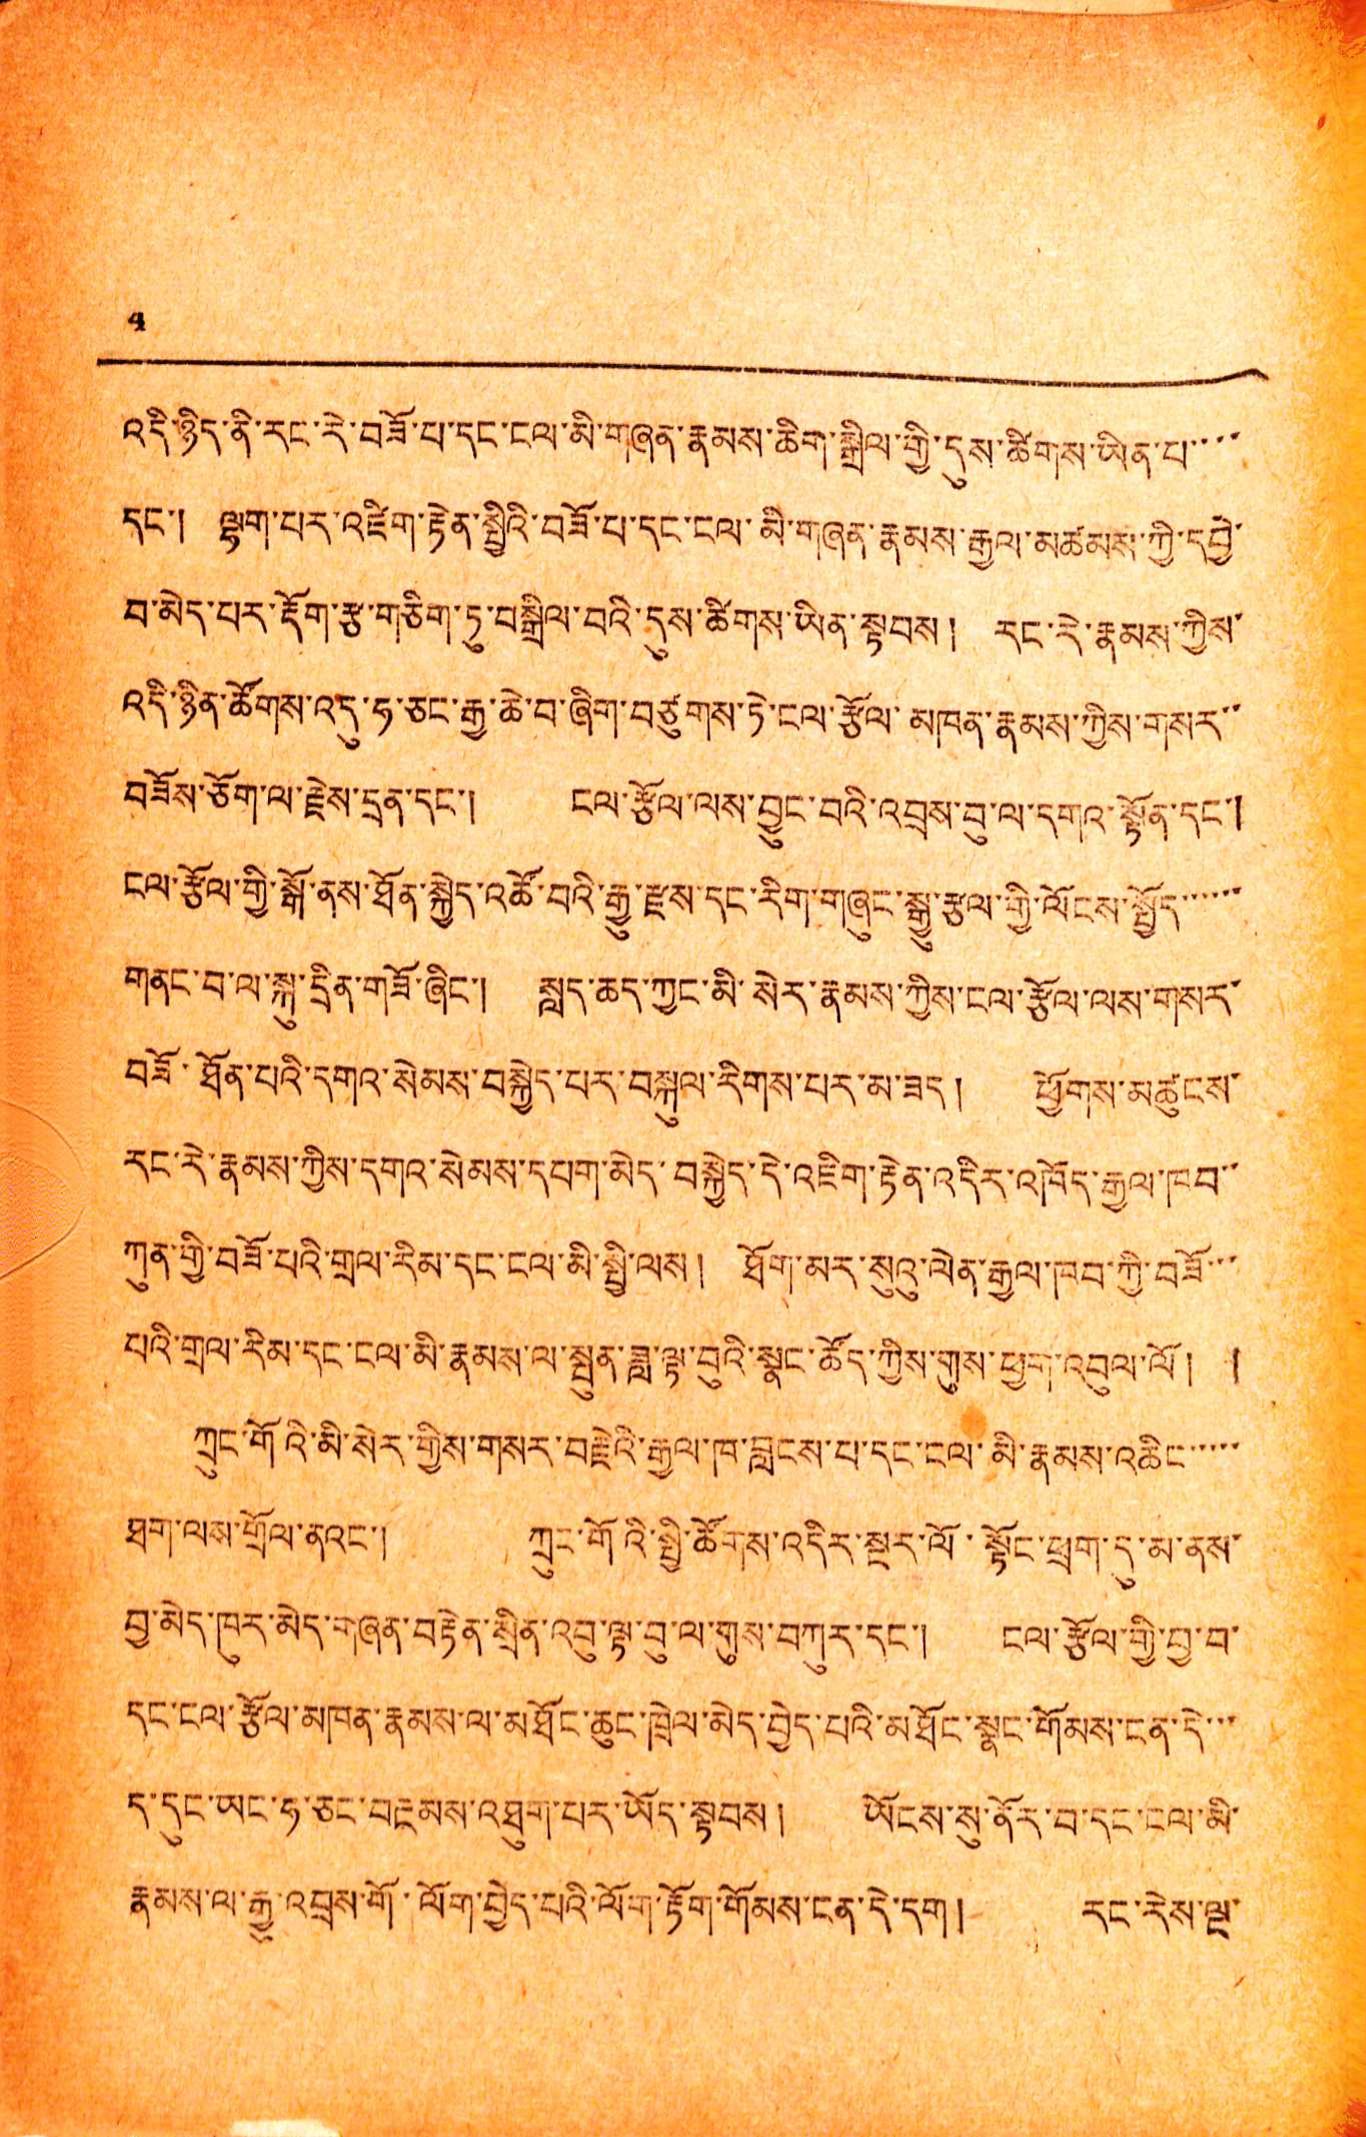4
འདི་ཉིད་ནི་རང་རེ་བཟོ་པ་དང་ངལ་མི་གཞན་རྣམས་ཆིག་སྒྲིལ་གྱི་དུས་ཚིགས་ཡིན་པ་་་་
དང་། ལྷག་པར་འཛིག་རྟེན་སྤྱིའི་བཟོ་པ་དང་ངལ་མི་བཞན་རྣམས་རྒྱལ་མཚམལ་ཀྱི་དབྱེ་
བ་མེད་པར་རྡོག་རྩ་གཅིག་ཏུ་བསྒྲིལ་བའི་དུས་ཚིགས་ཡིན་སྟབས། རང་རེ་རྣམས་ཀྱིས་
འདི་ཉིན་ཚོགས་འདུ་ཧ་ཅང་རྒྱ་ཆེ་བ་ཞིག་བཙུགས་ཏེ་ངལ་རྩོལ་མཁན་རྣམས་ཀྱིས་གསར་་
བཟོས་ཅོག་ལ་རྗེས་དྲན་དང་། ངལ་རྩོལ་ལས་བྱུང་བའི་འབྲས་བུ་ལ་དགའ་སྟོན་དང་།
ངལ་རྩོལ་གྱི་སྒོ་ནས་ཐོན་སྐྱེད་འཚོ་བའི་རྒྱུ་རྫས་དང་རིག་གཞུང་སྒྱུ་རྩལ་གྱི་ལོང་སྤྱོད་་་་་་
གནང་བ་ལ་སྐུ་དྲིན་གཟོ་ཞིང་། སླད་ཆད་ཀྱང་མི་སེར་རྣམས་ཀྱིས་ངལ་རྩོལ་ལས་གསར་
བཟོ་ཐོན་པའི་དགའ་སེམས་བསྐྱེད་པར་བསྐུལ་རིགས་པར་མ་ཟད། ཕྱོགས་མཚུངས་
རང་རེ་རྣམས་ཀྱིས་དགའ་སེམས་དཔག་མེད་བསྐྱེད་དེ་འཇིག་རྟེན་འདིར་འཁོད་རྒྱལ་ཁབ་་
ཀུན་གྱི་བཟོ་པའི་གྲལ་རིམ་དང་ངལ་མི་སྤྱི་ལས། ཐོག་མར་སུའུ་ལེན་རྒྱལ་ཁབ་ཀྱི་བཟོ་་་
པའི་གྲལ་རིམ་དང་ངལ་མི་རྣམས་ལ་སྤུན་ཟླ་ལྟ་བུའི་སྣང་ཚོད་ཀྱིས་གུས་ཕྱག་འབུལ་ལོ ། །
ཀྲུང་གོའི་མི་སེར་གྱིས་གསར་བརྗེའི་རྒྱལ་ཁ་བླངས་པ་དང་ངལ་མི་རྣམས་འཆིང་་་་་
ཐག་ལས་གྲོལ་ནའང་། ཀྲུང་གོའི་སྤྱི་ཚོགས་འདིར་སྔར་ལོ་སྟོང་ཕྲག་དུ་མ་ནས་
བྱ་མེད་ཁུར་མེད་གཞན་བརྟེན་སྲིན་འབུ་ལྟ་བུ་ལ་གུས་བཀུར་དང་། ངལ་རྩོལ་གྱི་བྱ་བ་
དང་ངལ་རྩོལ་མཁན་རྣམས་ལ་མཐོང་ཆུང་ཁྲེལ་མེད་བྱེད་པའི་མཐོང་སྣང་གོམས་ངན་དེ་་་
ད་དུང་ཡང་ཧ་ཅང་བརྔམས་འཐུག་པར་ཡོད་སྟབས། ཡོངས་སུ་ནོར་བ་དང་ངལ་མི་
རྣམས་ལ་རྒྱུ་འབྲས་གོ་ལོག་བྱེད་པའི་ལོག་རྟོག་གོམས་ངན་དེ་དག། རང་རེས་ལྔ་
